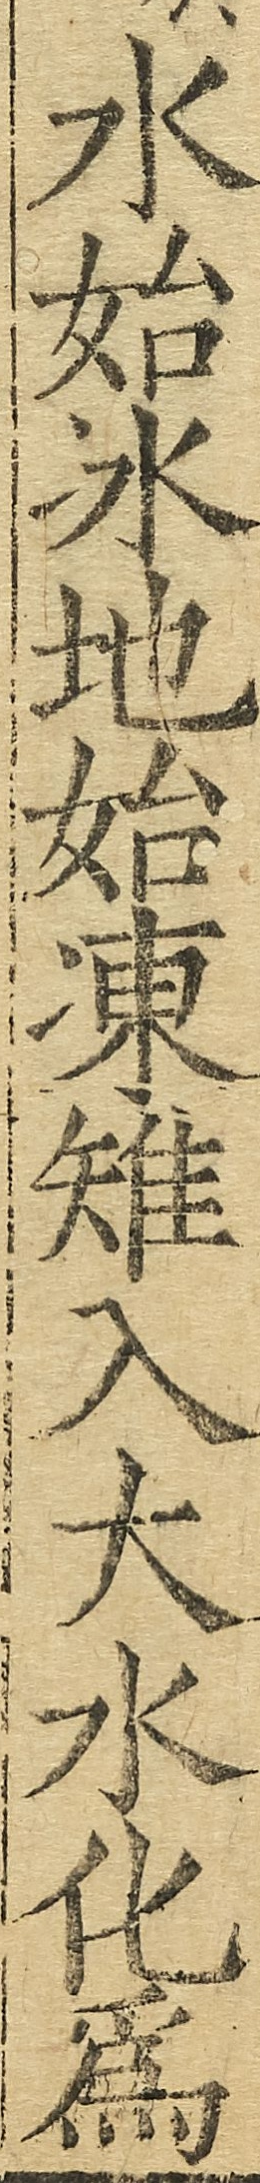水始冰地始凍雉入大水化為
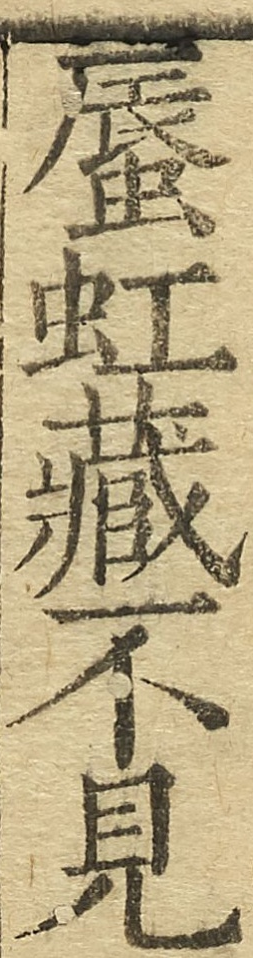蜃虹藏不見
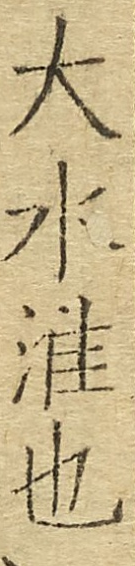大水淮也
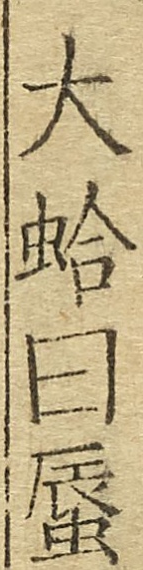大蛤曰蜃
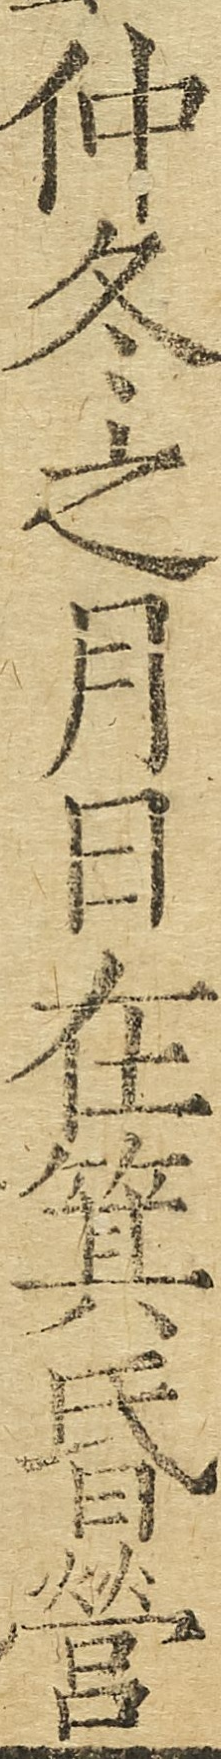仲冬之月日在箕昏營
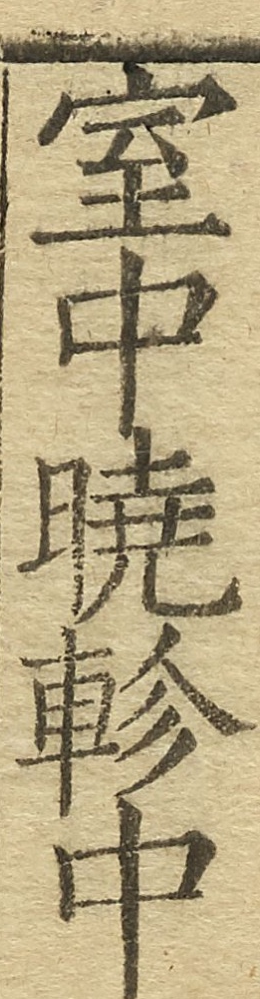室中曉軫中
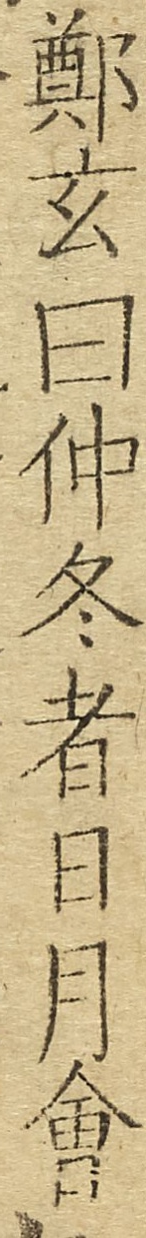鄭玄曰仲冬者日月會
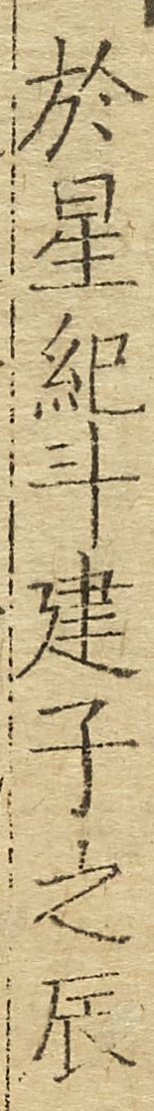於星紀斗建子之辰
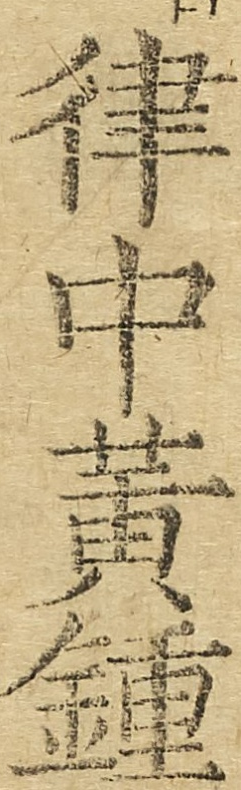律中黃鍾
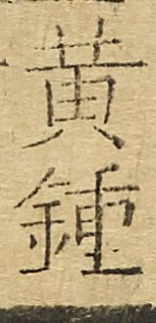黃鍾
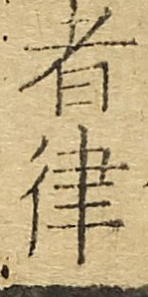者律
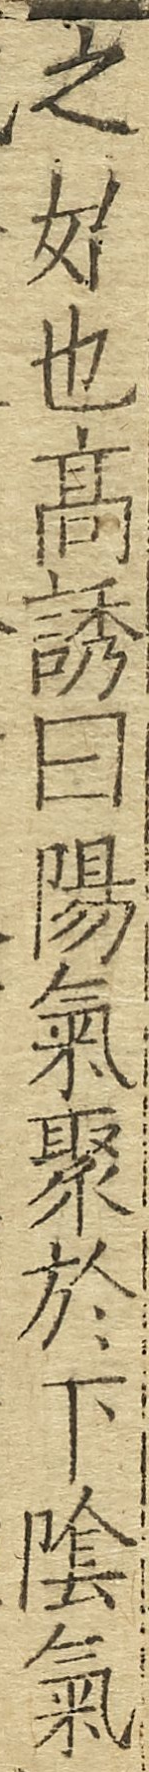之始也高誘曰陽氣聚於下陰氣
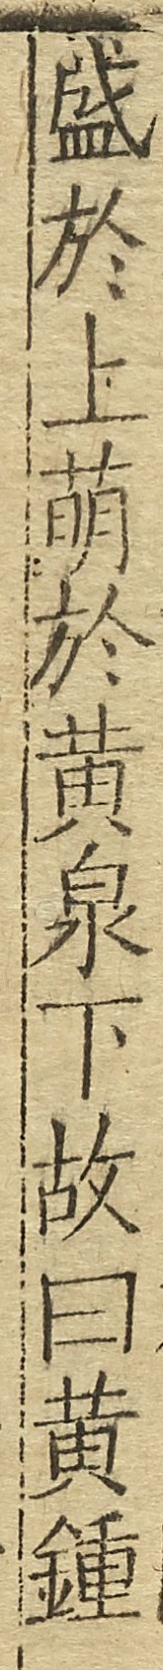盛於上萌於黃泉下故曰黃鍾
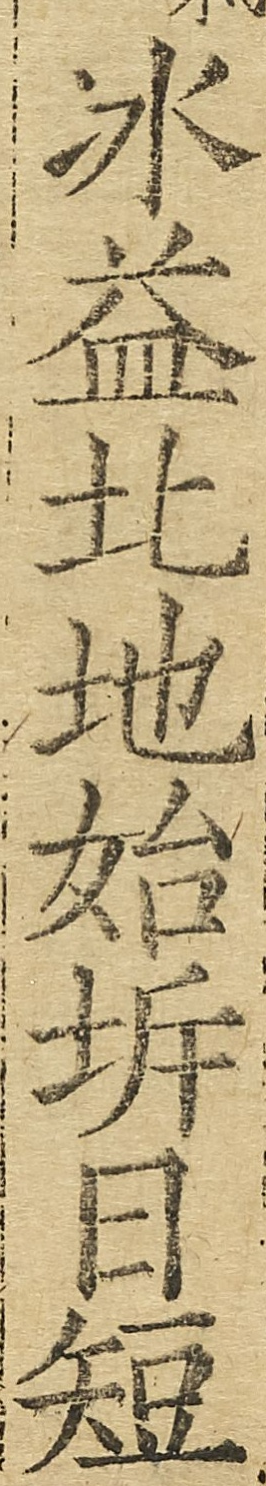冰益北地始坼日短
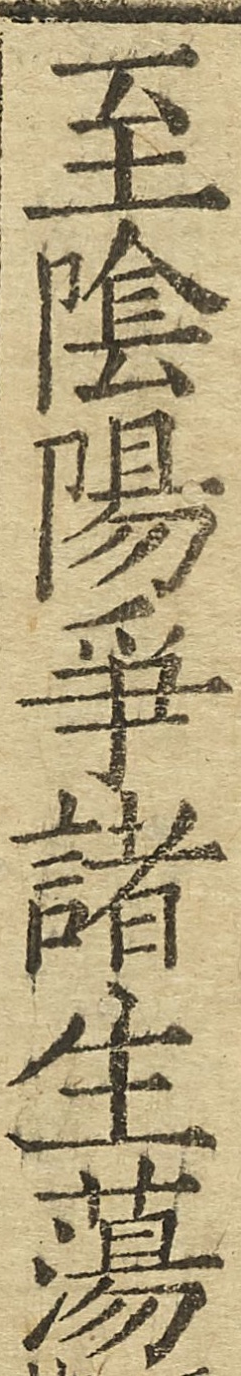至陰陽爭諸生蕩
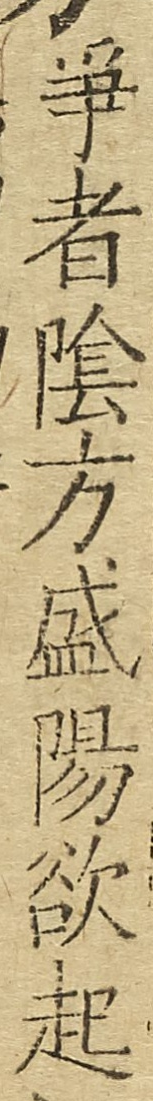爭者陰方盛陽欲起
